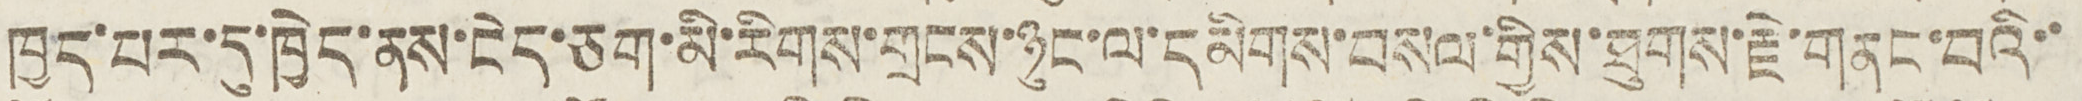ཁྱད་པར་དུ་ཁྱེད་ནས་ངེད་ཅག་མི་རིགས་གྲངས་ཉུང་ལ་དམིགས་བསལ་གྱིས་ཐུགས་རྗེ་གནང་བའི་་
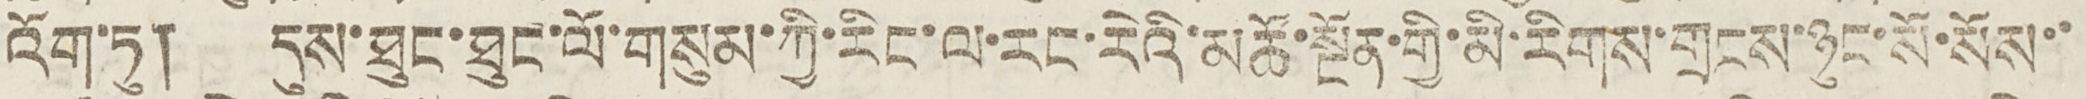འོག་ཏུ། དུས་ཐུང་ཐུང་ལོ་གསུམ་ཀྱི་རིང་ལ་རང་རེའི་མཚོ་སྔོན་གྱི་མི་རིགས་གྲངས་ཉུང་སོ་སོས་་
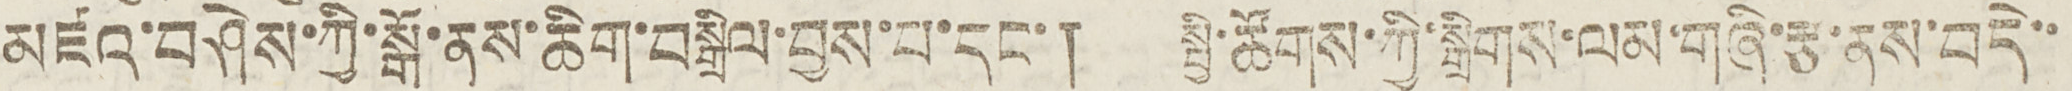མཛའ་བཤེས་ཀྱི་སྒོ་ནས་ཆིག་བསྒྲིལ་བྱས་པ་དང་། སྤྱི་ཚོགས་ཀྱི་སྒྲིགས་ལམ་གཞི་རྩ་ནས་བདེ་་
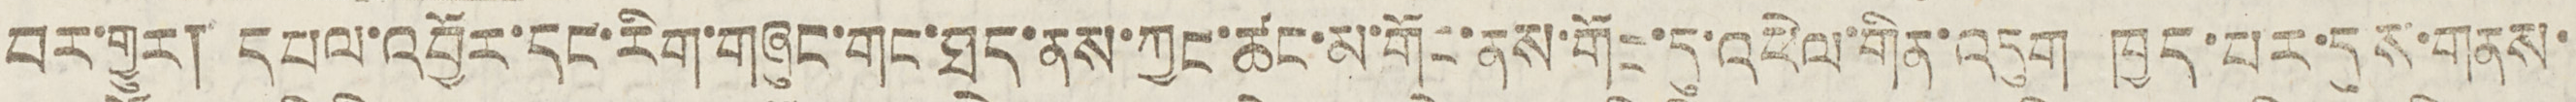བར་གྱུར། དཔལ་འབྱོར་དང་རིག་གཞུང་གང་ཐད་ནས་ཀྱང་ཚང་མ་གོང་ནས་གང་དུ་འཕེལ་གིན་འདུག ཁྱད་པར་དུས་གནས་
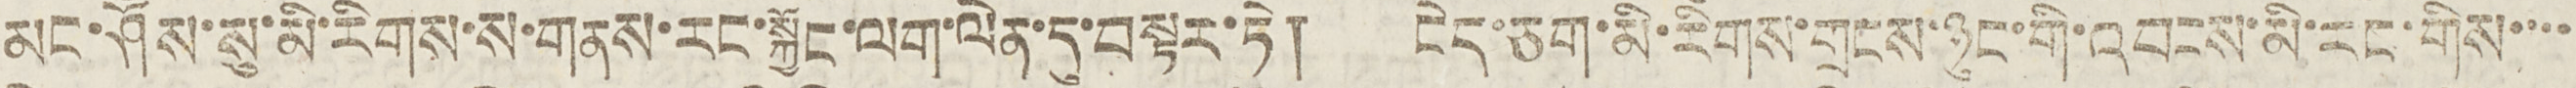མང་ཤོས་སུ་མི་རིགས་ས་གནས་རང་སྐྱོང་ལག་ལེན་དུ་བསྟར་ཏེ། ངེད་ཅག་མི་རིགས་གྲངས་ཉུང་གི་འབངས་མི་རང་གིས་་་་
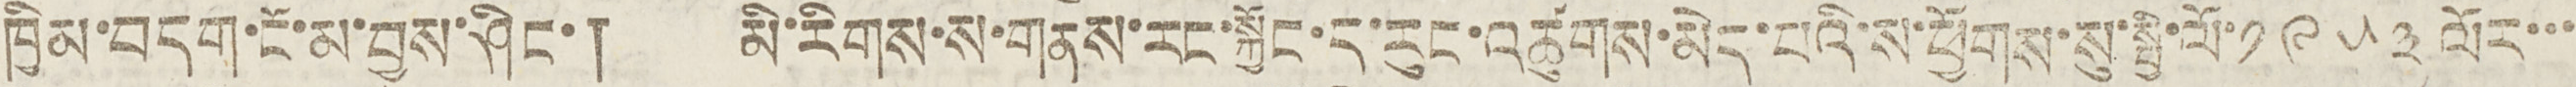ཁྱིམ་བདག་ངོ་མ་བྱས་ཤིང་། མི་རིགས་ས་གནས་རང་སྐྱོང་ད་རུང་འཚུགས་མེད་པའི་ས་ཕྱོགས་སུ་སྤྱི་ལོ་༡༩༥༣ ལོར་་་
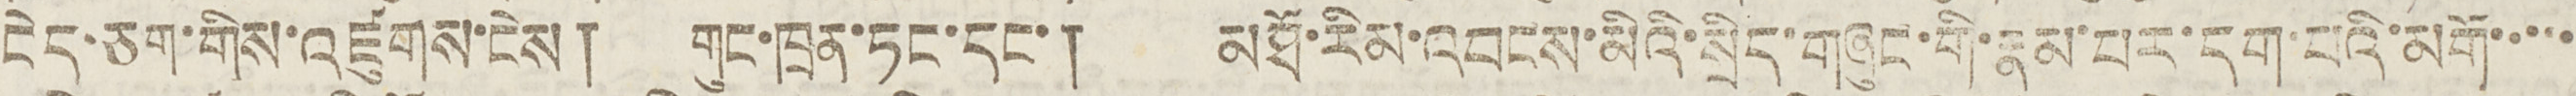ངེད་ཅག་གིས་འཛུགས་ངེས། གུང་ཁྲན་ཏང་དང་། མཐོ་རིམ་འབངས་མིའི་སྲིད་གཞུང་གི་རྣམ་པར་དག་པའི་མགོ་་་་་
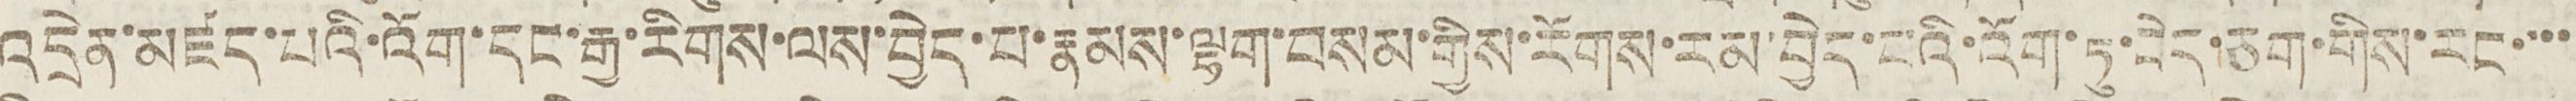འདྲེན་མཛད་པའི་འོག་དང་རྒྱ་རིགས་ལས་བྱེད་པ་རྣམས་ལྷག་བསམ་གྱིས་རོགས་རམ་བྱེད་པའི་འོག་ཏུ་བདེ་ཅག་གིས་རང་་་་
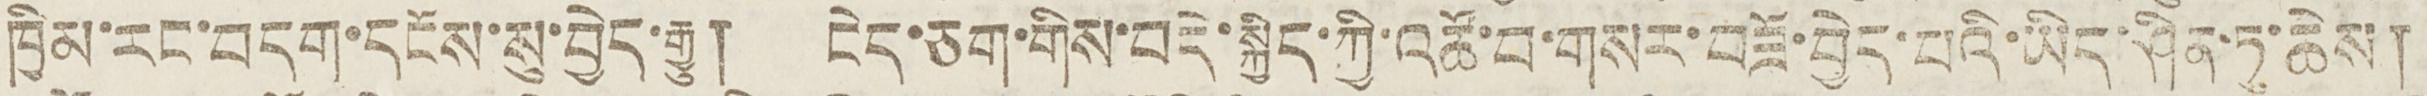ཁྱིམ་རང་བདག་དངོས་སུ་བྱེད་རྒྱུ། ངེད་ཅག་གིས་བདེ་སྐྱིད་ཀྱི་འཚོ་བ་གསར་བཟོ་བྱེད་པའི་ཡིད་ཤིན་ཏུ་ཆེས།
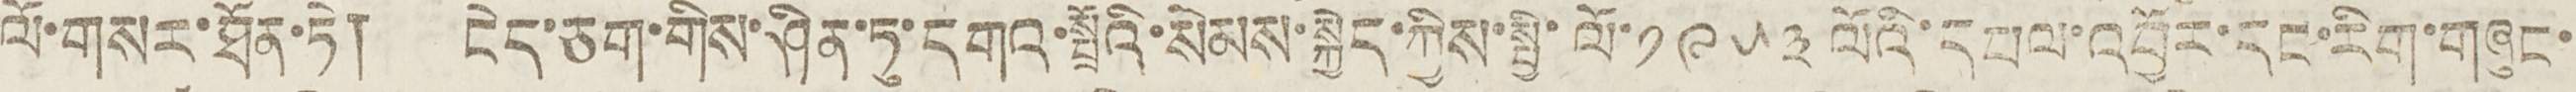ལོ་གསར་ཐོན་ཏེ། ངེད་ཅག་གིས་ཤིན་ཏུ་དགའ་སྤྲོའི་སེམས་སྐྱེད་ཀྱིས་སྤྱི་ལོ་༡༩༥༣ ལོའི་དཔལ་འབྱོར་དང་རིག་གཞུང་
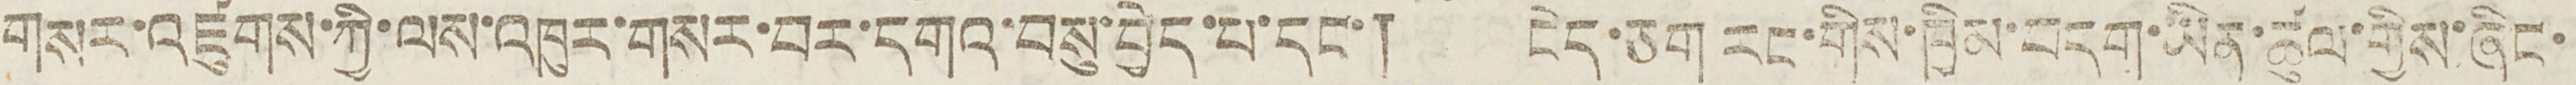གསར་འཛུགས་ཀྱི་ལས་འཁུར་གསར་བར་དགའ་བསུ་བྱེད་པ་དང་། ངེད་ཅག རང་གིས་ཁྱིམ་བདག་ཡིན་ཚུལ་གྱིས་ཞིང་
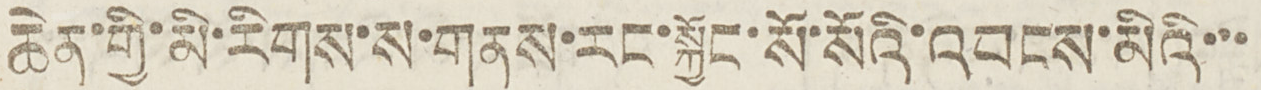ཆེན་གྱི་མི་རིགས་ས་གནས་རང་སྐྱོང་སོ་སོའི་འབངས་མིའི་་་
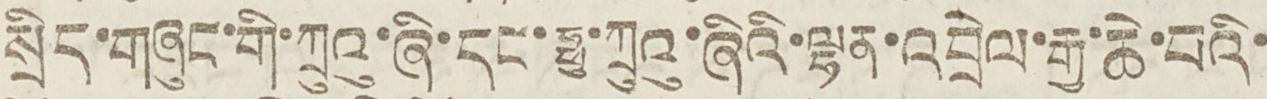སྲིད་གཞུང་གི་ཀྲུའུ་ཞི་དང་ཧྥུ་ཀྲུའུ་ཞིའི་ལྷན་འབྲེལ་རྒྱ་ཆེ་བའི་
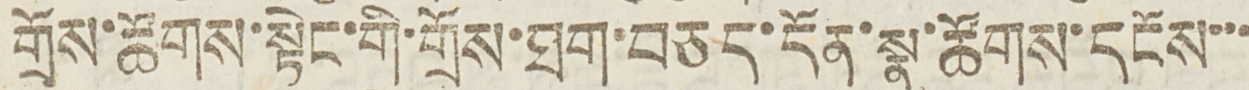གྲོས་ཚོགས་སྟེང་གི་གྲོས་ཐག་བཅད་དོན་སྣ་ཚོགས་དངོས་་་
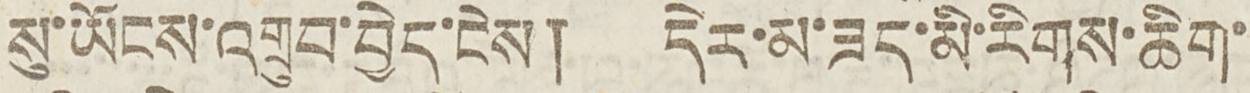སུ་ཡོངས་འགྲུབ་བྱེད་ངེས། དེར་མ་ཟད་མི་རིགས་ཆིག་
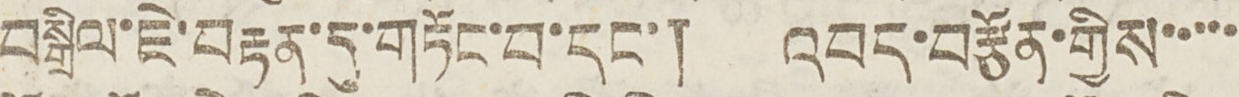བསྒྲིལ་ཇེ་བརྟན་དུ་གཏོང་བ་དང་། འབད་བརྩོན་གྱིས་་་་་
